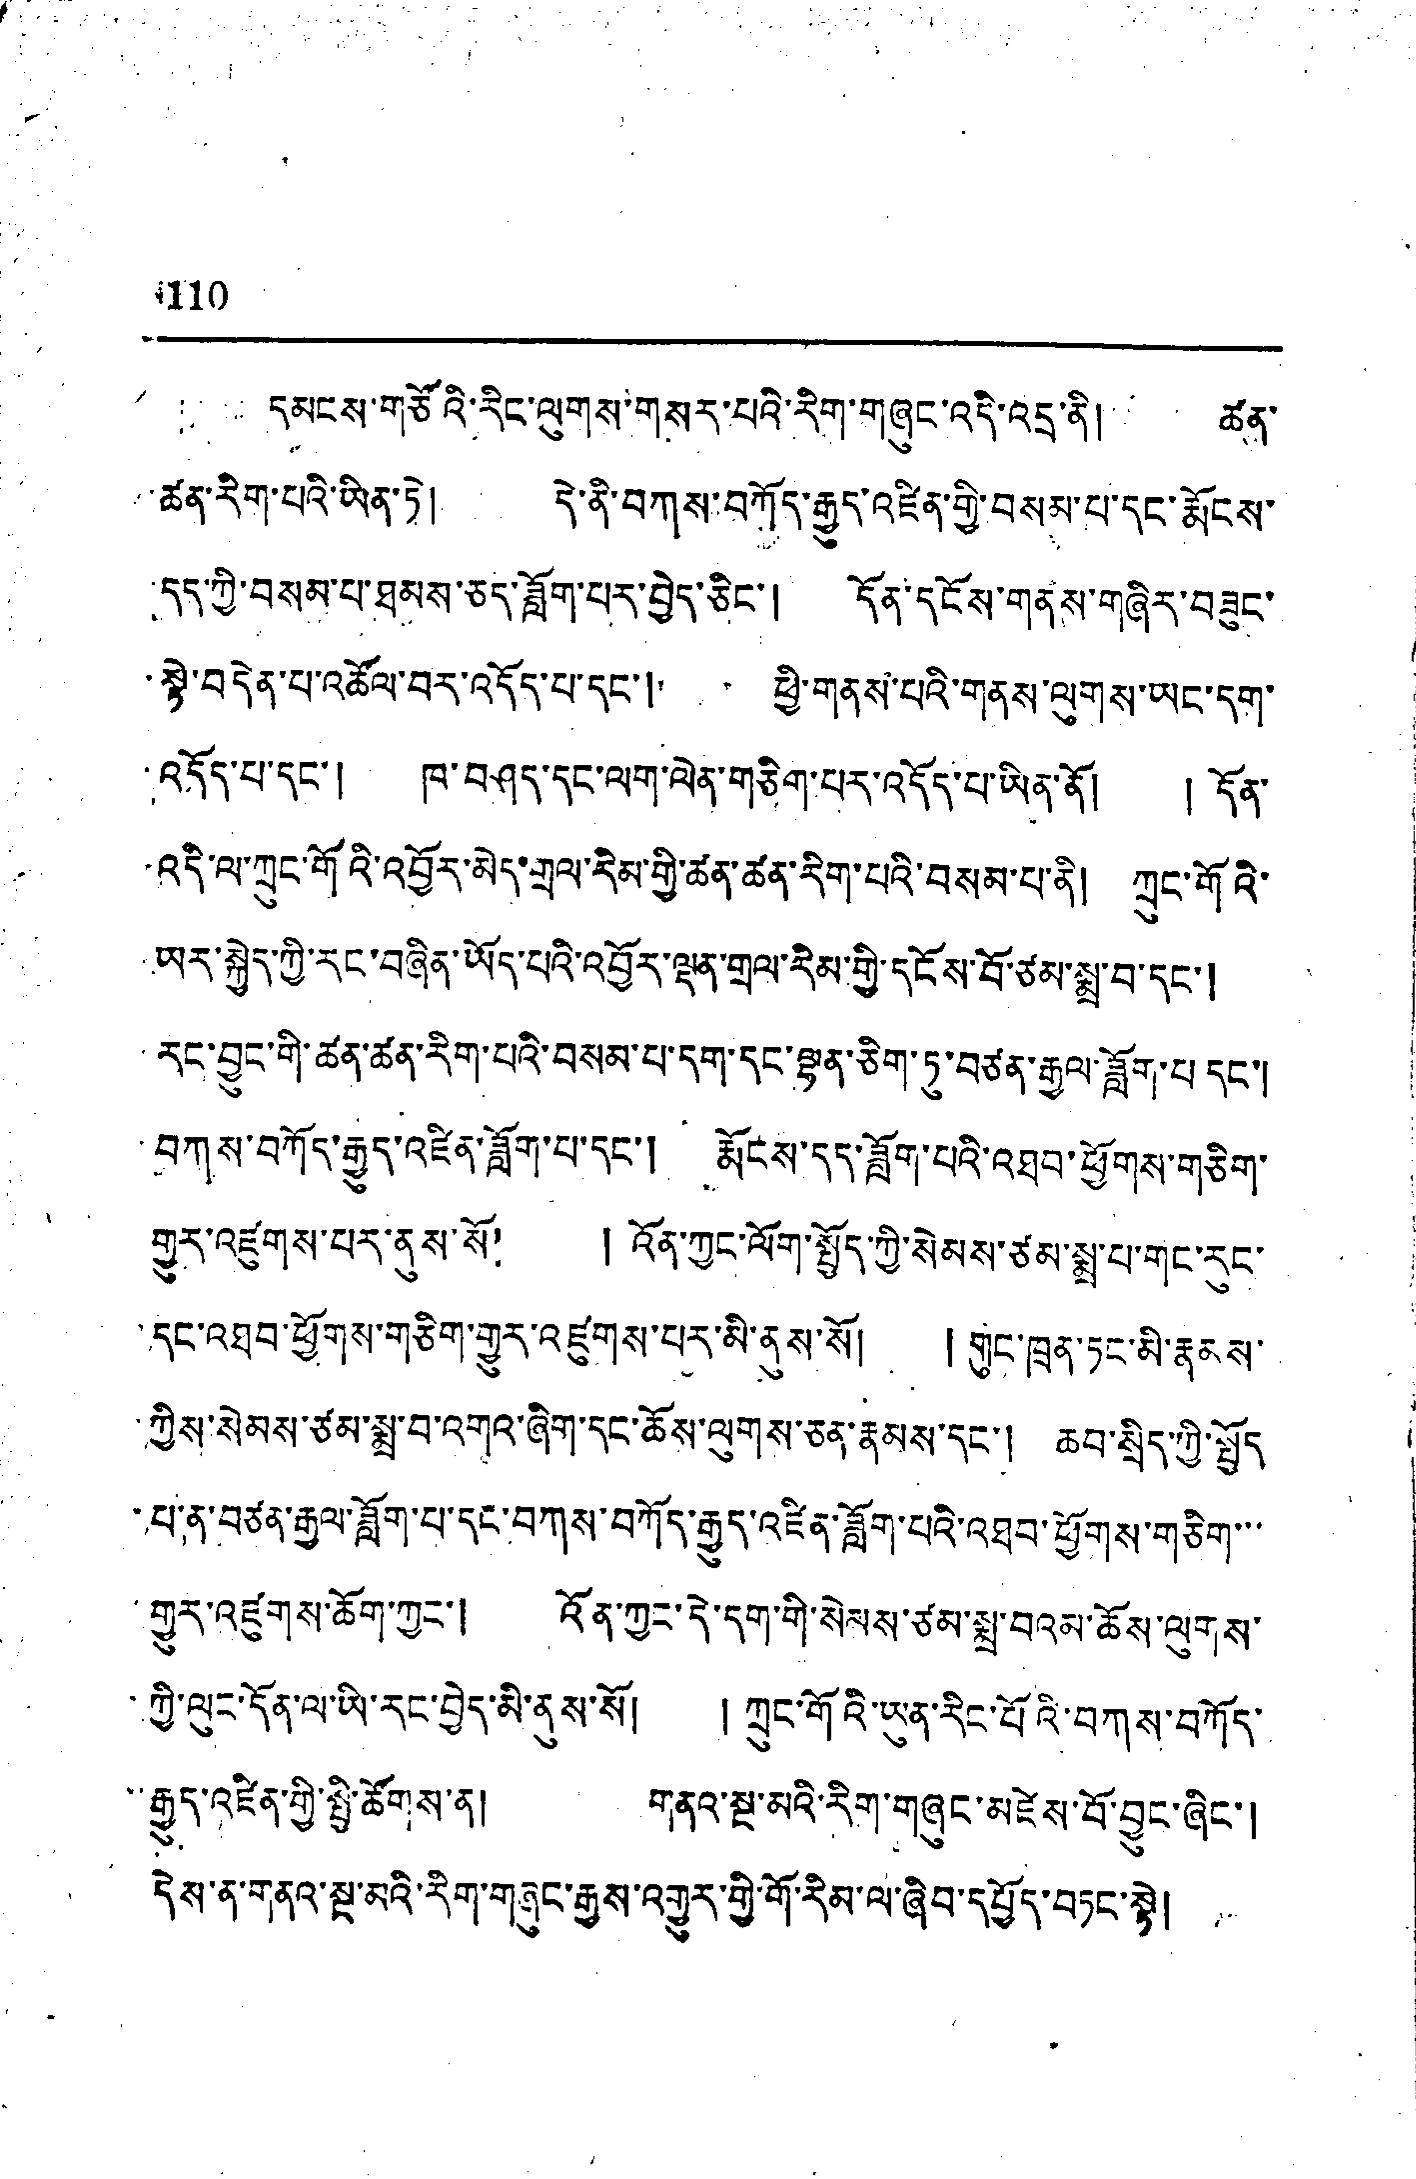110
དམངས་གཙོའི་རིང་ལུགས་གསར་པའི་རིག་གཞུང་འདི་འདྲ་ནི། ཚན་
ཚན་རིག་པའི་ཡིན་ཏེ། དེ་ནི་བཀས་བཀོད་རྒྱུད་འཛིན་གྱི་བསམ་པ་དང་རྨོངས་
དད་ཀྱི་བསམ་པ་ཐུམས་ཅད་ཟློག་པར་བྱེད་ཅིང་། དོན་དངོས་གནས་གཞིར་བཟུང་
སྟེ་བདེན་པ་འཚོལ་བར་འདོད་པ་དང་། ཕྱི་གནས་པའི་གནས་ལུགས་ཡང་དག
འདོད་པ་དང་། ཁ་བཤད་དང་ལག་ལེན་གཅིག་པར་འདོད་པ་ཡིན་ནོ། ། དོན་
འདི་ལ་ཀྲུང་གོའི་འབྱོར་མེད་གྲལ་རིམ་གྱི་ཚན་ཚན་རིག་པའི་བསམ་པ་ནི། ཀྲུང་གོའི་
ཡར་སྐྱེད་ཀྱི་རང་བཞིན་ཡོད་པའི་འབྱོར་ལྡན་གྲལ་རིམ་གྱི་དངོས་བོ་ཙམ་སྨྲ་བ་དང་།
རང་བྱུང་གི་ཚན་ཚན་རིག་པའི་བསམ་པ་དག་དང་ལྷན་ཅིག་ཏུ་བཙན་རྒྱལ་ཟློག་པ་དང་།
བཀས་བཀོད་རྒྱུད་འཛིན་ཟློག་པ་དང་། རྨོངས་དད་ཟློག་པའི་འཐབ་ཕྱོགས་གཅིག་
གྱུར་འཛུགས་པར་ནུས་སོ། །འོན་ཀྱང་ལོག་སྤྱོད་ཀྱི་སེམས་ཙམ་སྨྲ་པ་གང་རུང་
དང་འཐབ་ཕྱོགས་གཅིག་གྱུར་འཛུགས་པར་མི་ནུས་སོ། །གུང་ཁྲན་ཏང་མི་རྣནས་
ཀྱིས་སེམས་ཙམ་སྨྲ་བ་འགའ་ཞིག་དང་ཆོས་ལུགས་ཅན་རྣམས་དང་། ཆབ་སྲིད་ཀྱི་སྤྱོད་
པ་ན་བཙན་རྒྱལ་ཟློག་པ་དང་བཀས་བཀོད་རྒྱུད་འཛིན་ཟློག་པའི་འཐབ་ཕྱོགས་གཅིག་་་
གྱུར་འཛུགས་ཆོག་ཀྱང་། འོན་ཀྱང་དེ་དག་གི་སེལས་ཙམ་སྨྲ་བའམ་ཆོས་ལུགས་
ཀྱི་ལུང་དོན་ལ་ཡི་རང་བྱེད་མི་ནུས་སོ། ། ཀྲུང་གོའི་ཡུན་རིང་པོའི་བཀས་བཀོད་
རྒྱུད་འཛིན་གྱི་སྤྱི་ཚོགས་ན། གནའ་སྔ་མའི་རིག་གཞུང་མཛེས་བོ་བྱུང་ཞིང་།
དེས་ན་གནའ་སྔ་མའི་རིག་གཞུང་རྒྱས་འགྱུར་གྱི་གོ་རིམ་ལ་ཞིབ་དཔྱོད་གཏང་སྟེ།
